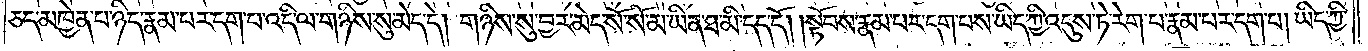ཅད་མཁྱེན་པ་ཉིད་རྣམ་པར་དག་པ་འདི་ལ་གཉིས་སུ་མེད་དེ། གཉིས་སུ་བྱར་མེད་སོ་སོ་མ་ཡིན་ཐ་མི་དད་དོ། །སྟོབས་རྣམ་པར་དག་པས་ཡིད་ཀྱི་འདུས་ཏེ་རེག་པ་རྣམ་པར་དག་པ། ཡིད་ཀྱི་
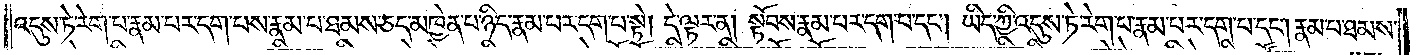འདུས་ཏེ་རེག་པ་རྣམ་པར་དག་པས་རྣམ་པ་ཐམས་ཅད་མཁྱེན་པ་ཉིད་རྣམ་པར་དག་པ་སྟེ། དེ་ལྟར་ན། སྟོབས་རྣམ་པར་དག་པ་དང༌། ཡིད་ཀྱི་འདུས་ཏེ་རེག་པ་རྣམ་པར་དག་པ་དང༌། རྣམ་པ་ཐམས་
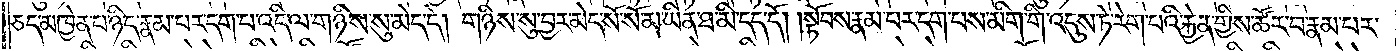ཅད་མཁྱེན་པ་ཉིད་རྣམ་པར་དག་པ་འདི་ལ་གཉིས་སུ་མེད་དེ། གཉིས་སུ་བྱར་མེད་སོ་སོ་མ་ཡིན་ཐ་མི་དད་དོ། །སྟོབས་རྣམ་པར་དག་པས་མིག་གི་འདུས་ཏེ་རེག་པའི་རྐྱེན་གྱིས་ཚོར་བ་རྣམ་པར་
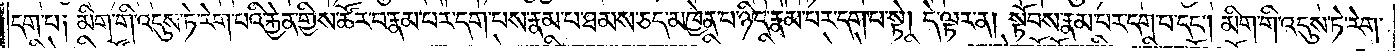དག་པ༑ མིག་གི་འདུས་ཏེ་རེག་པའི་རྐྱེན་གྱིས་ཚོར་བ་རྣམ་པར་དག་པས་རྣམ་པ་ཐམས་ཅད་མཁྱེན་པ་ཉིད་རྣམ་པར་དག་པ་སྟེ། དེ་ལྟར་ན། སྟོབས་རྣམ་པར་དག་པ་དང༌། མིག་གི་འདུས་ཏེ་རེག་
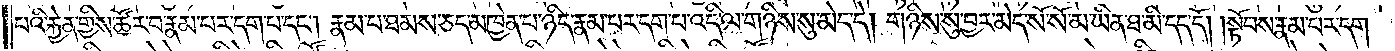པའི་རྐྱེན་གྱིས་ཚོར་བ་རྣམ་པར་དག་པ་དང༌། རྣམ་པ་ཐམས་ཅད་མཁྱེན་པ་ཉིད་རྣམ་པར་དག་པ་འདི་ལ་གཉིས་སུ་མེད་དེ། གཉིས་སུ་བྱར་མེད་སོ་སོ་མ་ཡིན་ཐ་མི་དད་དོ། །སྟོབས་རྣམ་པར་དག་
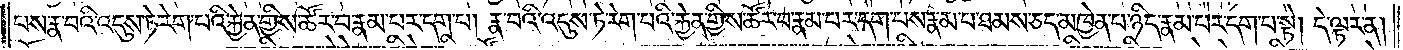པས་རྣ་བའི་འདུས་ཏེ་རེག་པའི་རྐྱེན་གྱིས་ཚོར་བ་རྣམ་པར་དག་པ། རྣ་བའི་འདུས་ཏེ་རེག་པའི་རྐྱེན་གྱིས་ཚོར་བ་རྣམ་པར་དག་པས་རྣམ་པ་ཐམས་ཅད་མཁྱེན་པ་ཉིད་རྣམ་པར་དག་པ་སྟེ། དེ་ལྟར་ན།
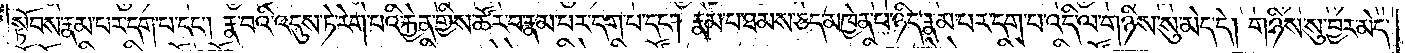སྟོབས་རྣམ་པར་དག་པ་དང༌། རྣ་བའི་འདུས་ཏེ་རེག་པའི་རྐྱེན་གྱིས་ཚོར་བ་རྣམ་པར་དག་པ་དང༌། རྣམ་པ་ཐམས་ཅད་མཁྱེན་པ་ཉིད་རྣམ་པར་དག་པ་འདི་ལ་གཉིས་སུ་མེད་དེ། གཉིས་སུ་བྱར་མེད་
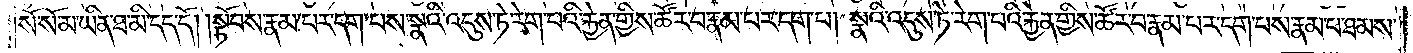སོ་སོ་མ་ཡིན་ཐ་མི་དད་དོ། །སྟོབས་རྣམ་པར་དག་པས་སྣའི་འདུས་ཏེ་རེག་པའི་རྐྱེན་གྱིས་ཚོར་བ་རྣམ་པར་དག་པ། སྣའི་འདུས་ཏེ་རེག་པའི་རྐྱེན་གྱིས་ཚོར་བ་རྣམ་པར་དག་པས་རྣམ་པ་ཐམས་
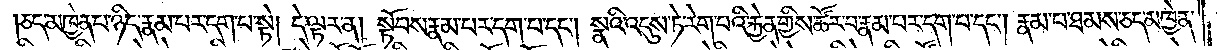ཅད་མཁྱེན་པ་ཉིད་རྣམ་པར་དག་པ་སྟེ། དེ་ལྟར་ན། སྟོབས་རྣམ་པར་དག་པ་དང༌། སྣའི་འདུས་ཏེ་རེག་པའི་རྐྱེན་གྱིས་ཚོར་བ་རྣམ་པར་དག་པ་དང༌། རྣམ་པ་ཐམས་ཅད་མཁྱེན་
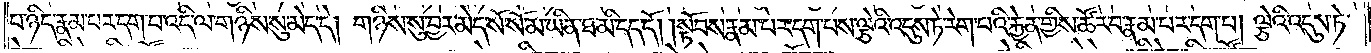པ་ཉིད་རྣམ་པར་དག་པ་འདི་ལ་གཉིས་སུ་མེད་དེ། གཉིས་སུ་བྱར་མེད་སོ་སོ་མ་ཡིན་ཐ་མི་དད་དོ། །སྟོབས་རྣམ་པར་དག་པས་ལྕེའི་འདུས་ཏེ་རེག་པའི་རྐྱེན་གྱིས་ཚོར་བ་རྣམ་པར་དག་པ། ལྕེའི་འདུས་ཏེ་
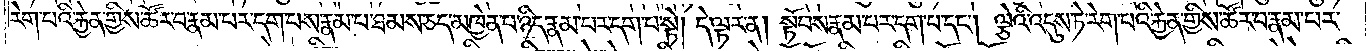རེག་པའི་རྐྱེན་གྱིས་ཚོར་བ་རྣམ་པར་དག་པས་རྣམ་པ་ཐམས་ཅད་མཁྱེན་པ་ཉིད་རྣམ་པར་དག་པ་སྟེ། དེ་ལྟར་ན། སྟོབས་རྣམ་པར་དག་པ་དང༌། ལྕེའི་འདུས་ཏེ་རེག་པའི་རྐྱེན་གྱིས་ཚོར་བ་རྣམ་པར་
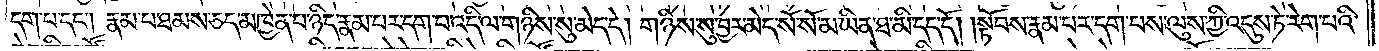དག་པ་དང༌། རྣམ་པ་ཐམས་ཅད་མཁྱེན་པ་ཉིད་རྣམ་པར་དག་པ་འདི་ལ་གཉིས་སུ་མེད་དེ། གཉིས་སུ་བྱར་མེད་སོ་སོ་མ་ཡིན་ཐ་མི་དད་དོ། །སྟོབས་རྣམ་པར་དག་པས་ལུས་ཀྱི་འདུས་ཏེ་རེག་པའི་
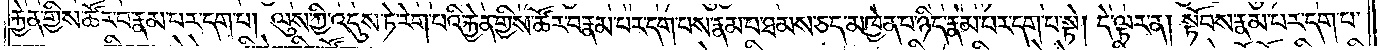རྐྱེན་གྱིས་ཚོར་བ་རྣམ་པར་དག་པ། ལུས་ཀྱི་འདུས་ཏེ་རེག་པའི་རྐྱེན་གྱིས་ཚོར་བ་རྣམ་པར་དག་པས་རྣམ་པ་ཐམས་ཅད་མཁྱེན་པ་ཉིད་རྣམ་པར་དག་པ་སྟེ། དེ་ལྟར་ན། སྟོབས་རྣམ་པར་དག་པ་
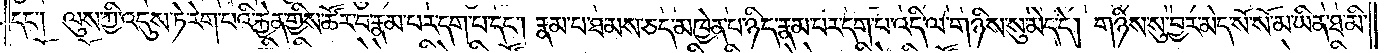དང༌། ལུས་ཀྱི་འདུས་ཏེ་རེག་པའི་རྐྱེན་གྱིས་ཚོར་བ་རྣམ་པར་དག་པ་དང༌། རྣམ་པ་ཐམས་ཅད་མཁྱེན་པ་ཉིད་རྣམ་པར་དག་པ་འདི་ལ་གཉིས་སུ་མེད་དེ། གཉིས་སུ་བྱར་མེད་སོ་སོ་མ་ཡིན་ཐ་མི་
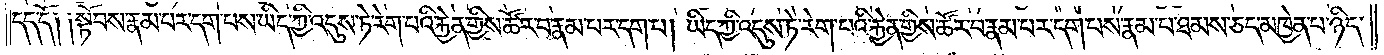དད་དོ༑ ༑སྟོབས་རྣམ་པར་དག་པས་ཡིད་ཀྱི་འདུས་ཏེ་རེག་པའི་རྐྱེན་གྱིས་ཚོར་བ་རྣམ་པར་དག་པ། ཡིད་ཀྱི་འདུས་ཏེ་རེག་པའི་རྐྱེན་གྱིས་ཚོར་བ་རྣམ་པར་དག་པས་རྣམ་པ་ཐམས་ཅད་མཁྱེན་པ་ཉིད་
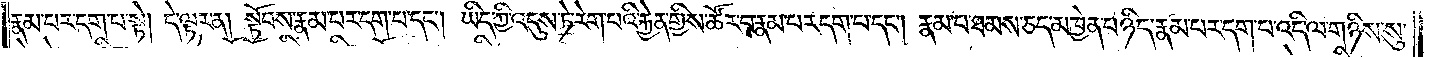རྣམ་པར་དག་པ་སྟེ། དེ་ལྟར་ན། སྟོབས་རྣམ་པར་དག་པ་དང༌། ཡིད་ཀྱི་འདུས་ཏེ་རེག་པའི་རྐྱེན་གྱིས་ཚོར་བ་རྣམ་པར་དག་པ་དང༌། རྣམ་པ་ཐམས་ཅད་མཁྱེན་པ་ཉིད་རྣམ་པར་དག་པ་འདི་ལ་གཉིས་སུ་
